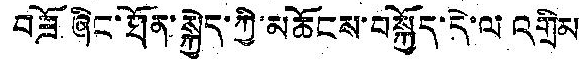བཟོ ཞིང་ཐོན་སྐྱེད་ཀྱི་མཆོངས་བསྐྱོད་དེ་ལ འགྲིམ
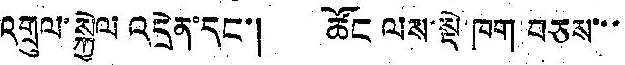འགྲུལ་སྐྱེལ འདྲེན་དང་། ཚོང ལས་སྡེ་ཁག བཅས་་་
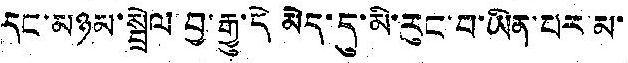དང་མཉམ་སྦྲེལ་བྱ་རྒྱུ་དེ མེད་དུ་མི་རུང་བ་ཡིན་པར མ་
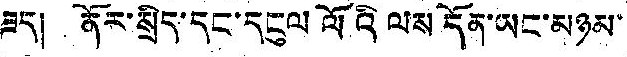ཟད། ནོར་སྲིད་དང་དངུལ ལོའི ལས དོན་ཡང་མཉམ་
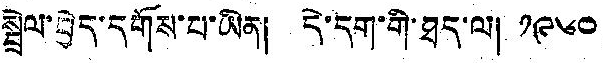སྦྲེལ་བྱེད་དགོས་པ་ཡིན། དེ་དག་གི་ཐད་ལ། ༡༩༦༠
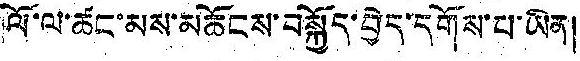ལོ་ལ་ཚང་མས་མཆོངས་བསྐྱོད་བྱེད་དགོས་པ་ཡིན།
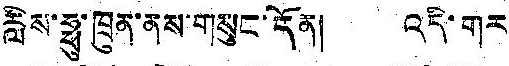རླིས་ཧྥུ་ཁྲུན་ནས་གསུང་དོན། འདི་གར
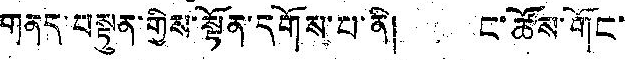གནད་བསྟུན་གྱིས་སྟོན་དགོས་པ་ནི། ང་ཚོས་གོང་
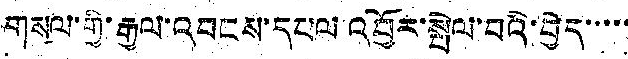གསལ་གྱི་རྒྱལ་འབངས་དཔལ འབྱོར་སྤེལ་བའི་བྱེད་་་་་
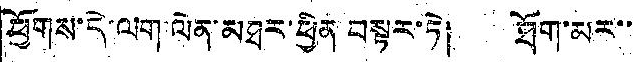ཕྱོགས་དེ་ལག ལེན་མཐར་ཕྱིན བསྟར་ཏེ། ཐོག་མར་་
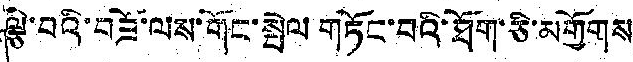ལྕི་བའི་བཟོ་ལས་གོང་སྤེལ གཏོང་བའི་ཐོག་ཅི་མགྱོགས
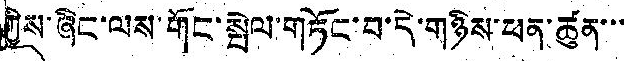ཀྱིས་ཞིང་ལས་གོང་སྤེལ་གཏོང་བ་དེ་གཉིས་ཕན་ཚུན་་་
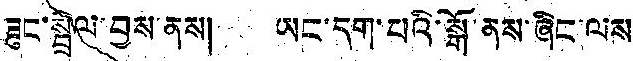ཟུང་སྦྲེལ་བྱས་ནས། ཡང་དག་པའི་སྒོ་ནས་ཞིང་ལས
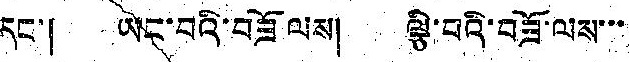དང་། ཡང་བའི་བཟོ ལས། ལྕི་བའི་བཟོ་ལས་་་
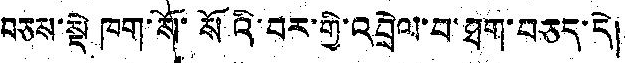བཅས་སྡེ ཁག་སོ་སིའི་བར་གྱི་འབྲེལ་བ་ཐག་བཅད་དེ།
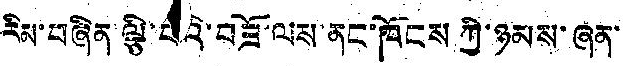རིམ་བཞིན་ལྕི་བའི་བཟོ་ལས་ནང་ཁོངས ཀྱི་ཉམས་ཞན་
